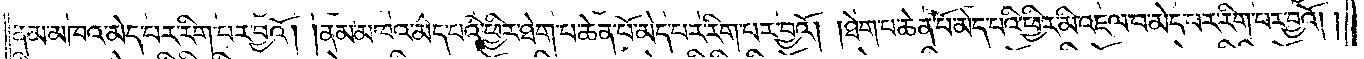ནམ་མཁའ་མེད་པར་རིག་པར་བྱའོ། །ནམ་མཁའ་མེད་པའི་ཕྱིར་ཐེག་པ་ཆེན་པོ་མེད་པར་རིག་པར་བྱའོ། །ཐེག་པ་ཆེན་པོ་མེད་པའི་ཕྱིར་མི་འཇལ་བ་མེད་པར་རིག་པར་བྱའོ། །
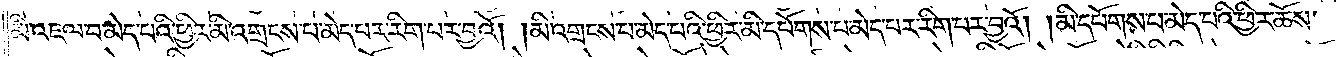མི་འཇལ་བ་མེད་པའི་ཕྱིར་མི་འགྲངས་པ་མེད་པར་རིག་པར་བྱའོ། །མི་འགྲངས་པ་མེད་པའི་ཕྱིར་མི་དཔོགས་པ་མེད་པར་རིག་པར་བྱའོ། །མི་དཔོགས་པ་མེད་པའི་ཕྱིར་ཆོས་
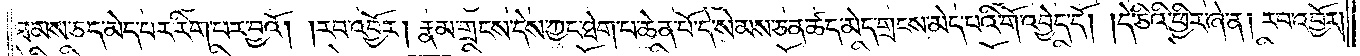ཐམས་ཅད་མེད་པར་རིག་པར་བྱའོ། །རབ་འབྱོར། རྣམ་གྲངས་དེས་ཀྱང་ཐེག་པ་ཆེན་པོ་དེ་སེམས་ཅན་ཚད་མེད་གྲངས་མེད་པའི་གོ་འབྱེད་དོ། །དེ་ཅིའི་ཕྱིར་ཞེ་ན། རབ་འབྱོར།
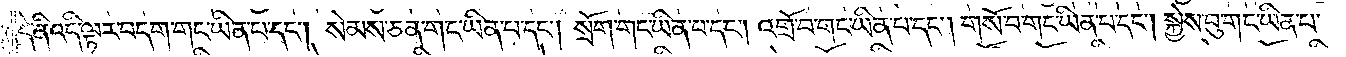དེ་ནི་འདི་ལྟར་བདག་གང་ཡིན་པ་དང༌། སེམས་ཅན་གང་ཡིན་པ་དང༌། སྲོག་གང་ཡིན་པ་དང༌། འགྲོ་བ་གང་ཡིན་པ་དང༌། གསོ་བ་གང་ཡིན་པ་དང༌། སྐྱེས་བུ་གང་ཡིན་པ་
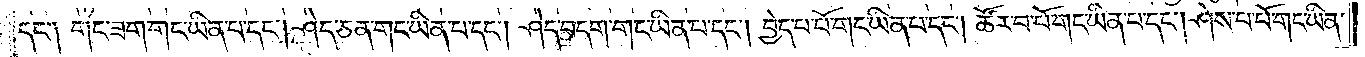དང༌། གང་ཟག་གང་ཡིན་པ་དང༌། ཤེད་ཅན་གང་ཡིན་པ་དང༌། ཤེད་བདག་གང་ཡིན་པ་དང༌། བྱེད་པ་པོ་གང་ཡིན་པ་དང༌། ཚོར་བ་པོ་གང་ཡིན་པ་དང༌། ཤེས་པ་པོ་གང་ཡིན་
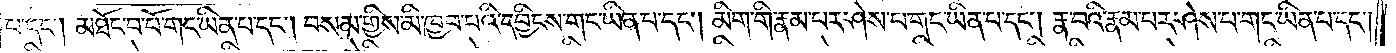པ་དང༌། མཐོང་བ་པོ་གང་ཡིན་པ་དང༌། བསམ་གྱིས་མི་ཁྱབ་པའི་དབྱིངས་གང་ཡིན་པ་དང༌། མིག་གི་རྣམ་པར་ཤེས་པ་གང་ཡིན་པ་དང༌། རྣ་བའི་རྣམ་པར་ཤེས་པ་གང་ཡིན་པ་དང༌།
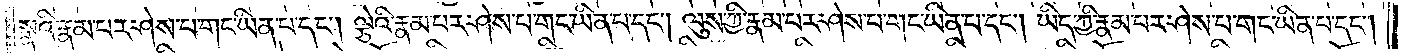སྣའི་རྣམ་པར་ཤེས་པ་གང་ཡིན་པ་དང༌། ལྕེའི་རྣམ་པར་ཤེས་པ་གང་ཡིན་པ་དང༌། ལུས་ཀྱི་རྣམ་པར་ཤེས་པ་གང་ཡིན་པ་དང༌། ཡིད་ཀྱི་རྣམ་པར་ཤེས་པ་གང་ཡིན་པ་དང༌།
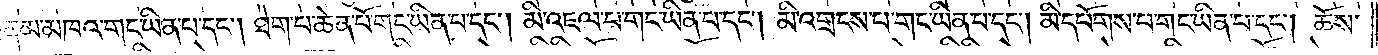ནམ་མཁའ་གང་ཡིན་པ་དང༌། ཐེག་པ་ཆེན་པོ་གང་ཡིན་པ་དང༌། མི་འཇལ་བ་གང་ཡིན་པ་དང༌། མི་འགྲངས་པ་གང་ཡིན་པ་དང༌། མི་དཔོགས་པ་གང་ཡིན་པ་དང༌། ཆོས་
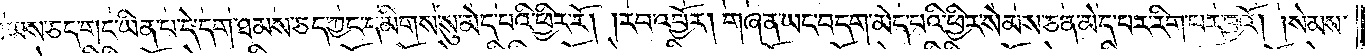ཐམས་ཅད་གང་ཡིན་པ་དེ་དག་ཐམས་ཅད་ཀྱང་དམིགས་སུ་མེད་པའི་ཕྱིར་རོ། །རབ་འབྱོར། གཞན་ཡང་བདག་མེད་པའི་ཕྱིར་སེམས་ཅན་མེད་པར་རིག་པར་བྱའོ། །སེམས་
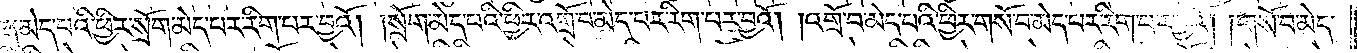ཅན་མེད་པའི་ཕྱིར་སྲོག་མེད་པར་རིག་པར་བྱའོ། །སྲོག་མེད་པའི་ཕྱིར་འགྲོ་བ་མེད་པར་རིག་པར་བྱའོ། །འགྲོ་བ་མེད་པའི་ཕྱིར་གསོ་བ་མེད་པར་རིག་པར་བྱའོ། །གསོ་བ་མེད་
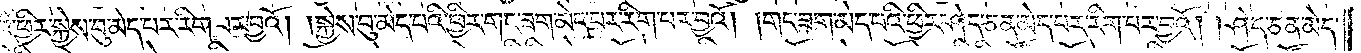པའི་ཕྱིར་སྐྱེས་བུ་མེད་པར་རིག་པར་བྱའོ། །སྐྱེས་བུ་མེད་པའི་ཕྱིར་གང་ཟག་མེད་པར་རིག་པར་བྱའོ། །གང་ཟག་མེད་པའི་ཕྱིར་ཤེད་ཅན་མེད་པར་རིག་པར་བྱའོ། །ཤེད་ཅན་མེད་
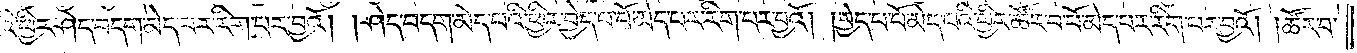པའི་ཕྱིར་ཤེད་བདག་མེད་པར་རིག་པར་བྱའོ། །ཤེད་བདག་མེད་པའི་ཕྱིར་བྱེད་པ་པོ་མེད་པར་རིག་པར་བྱའོ། །བྱེད་པ་པོ་མེད་པའི་ཕྱིར་ཚོར་བ་པོ་མེད་པར་རིག་པར་བྱའོ། །ཚོར་བ་
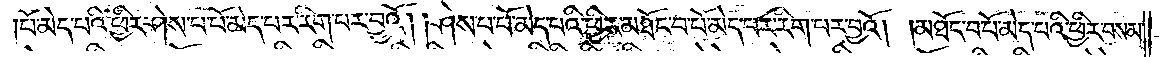པོ་མེད་པའི་ཕྱིར་ཤེས་པ་པོ་མེད་པར་རིག་པར་བྱའོ། །ཤེས་པ་པོ་མེད་པའི་ཕྱིར་མཐོང་བ་པོ་མེད་པར་རིག་པར་བྱའོ། །མཐོང་བ་པོ་མེད་པའི་ཕྱིར་བསམ་
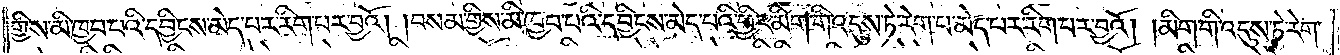གྱིས་མི་ཁྱབ་པའི་དབྱིངས་མེད་པར་རིག་པར་བྱའོ། བསམ་གྱིས་མི་ཁྱབ་པའི་དབྱིངས་མེད་པའི་ཕྱིར་མིག་གི་འདུས་ཏེ་རེག་པ་མེད་པར་རིག་པར་བྱའོ། མིག་གི་འདུས་ཏེ་རེག་
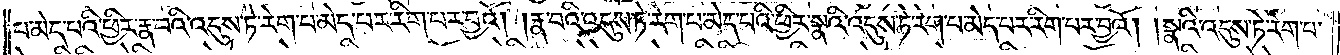པ་མེད་པའི་ཕྱིར་རྣ་བའི་འདུས་ཏེ་རེག་པ་མེད་པར་རིག་པར་བྱའོ། །རྣ་བའི་འདུས་ཏེ་རེག་པ་མེད་པའི་ཕྱིར་སྣའི་འདུས་ཏེ་རེག་པ་མེད་པར་རིག་པར་བྱའོ། །སྣའི་འདུས་ཏེ་རེག་པ་
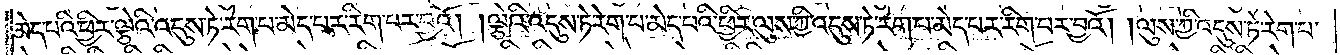མེད་པའི་ཕྱིར་ལྕེའི་འདུས་ཏེ་རེག་པ་མེད་པར་རིག་པར་བྱའོ། །ལྕེའི་འདུས་ཏེ་རེག་པ་མེད་པའི་ཕྱིར་ལུས་ཀྱི་འདུས་ཏེ་རེག་པ་མེད་པར་རིག་པར་བྱའོ། །ལུས་ཀྱི་འདུས་ཏེ་རེག་པ་
